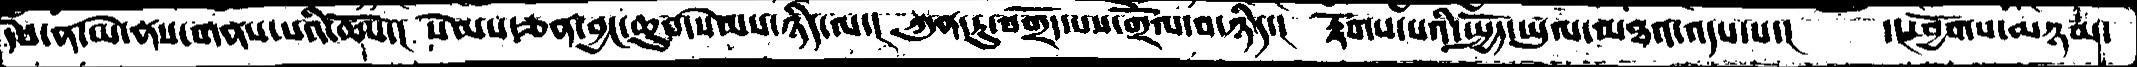དཔེ་ན་ཡེ་ནས་གནས་པའི་ཆོས་།  སེམས་ཅན་བྱང་ཆུབ་སེམས་ཉིད་ལ་།  ཀུན་དུ་བགྲོད་པས་གྲོལ་བ་ཉིད་།  རྟོགས་པའི་སྤྱོད་ཡུལ་མཐའ་འདས་པ་།  ་།ཕྱོགས་མཉམ་
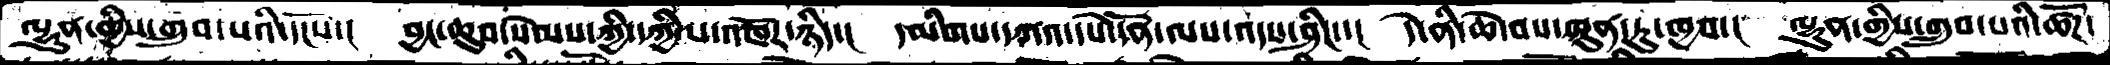ལྷུན་གྱིས་གྲུབ་པའི་དངོས་།  བྱང་ཆུབ་སེམས་ཀྱི་དཀྱིལ་འཁོར་ཉིད་།  དམིགས་དཀའ་དཔེ་དོན་ལས་འདས་ཤིང་་།  དེ་ནི་ཆེ་བས་ཁུན་ཏུ་ཁྱབ་།  ལྷུན་གྱིས་གྲུབ་པའི་ཚོཌ་
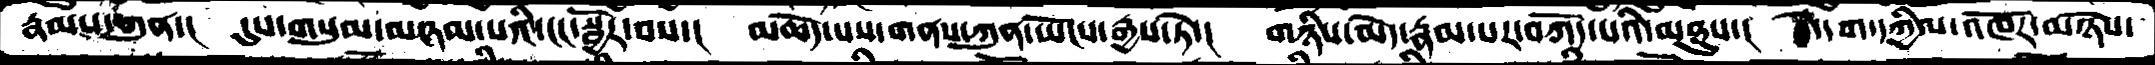རྣམས་ཀུན་།  དུས་གསུམ་མཉམ་པའི་ངང་སྦྱོར་བས་།  མཆོད་པས་གནས་ཀུན་ཡོངས་་རྒྱས་ཏེ་།  གཉིས་མེད་རྣམ་པར་བཀོད་པའི་མཐུས་།  དེ་དག་དཀྱིལ་འཁོར་མཉེས་
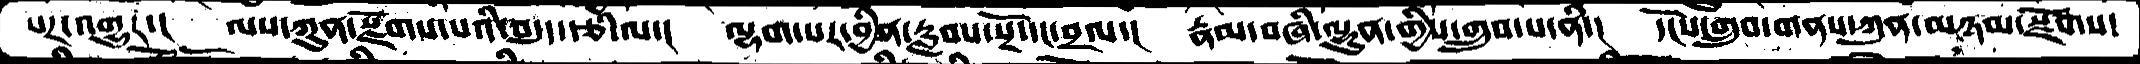པར་འགྱུར་།  ལས་ཀུན་སྫོགས་པའི་བདུད་རྩི་ལ་།  ལྷག་པར་བྱིན་རླབས་སྔོ་དང་བྲལ་།  རྣམ་བཞི་ལྷུན་གྱིས་གྲུབ་པ་ནི་།  དངོས་གྲུབ་གནས་ཀུན་མཉམ་སྫོགས་
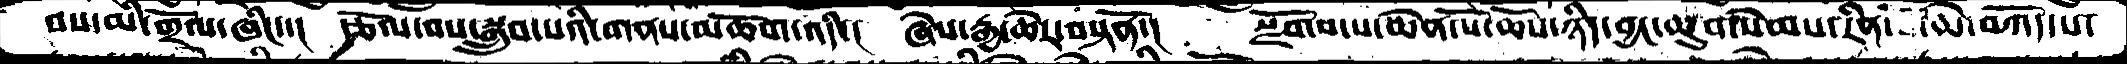བས་མི་གྲོལ་ཞིང་་།  རྩོལ་བས་སྒྲུབ་པའི་གནས་མཆོག་འདི་། ཞེས་རྒྱ་ཆེར་བསྟནོ་། སྫོགས་པ་ཆེན་པོ་ཆོས་ཉིད་བྱང་ཆུབ་སེམས་རིན་པོ་ཆེ་བཀོད་པ་
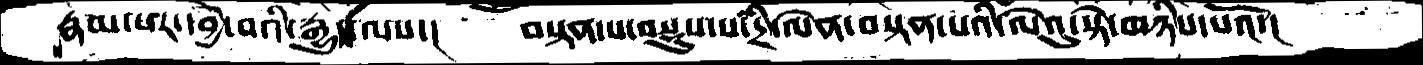རྣམ་པར་དབྱེ་བའི་རྒྱུད་ལས་།    བསྟན་པ་བསྡུས་པ་དྲི་ལེན་བསྟན་པའི་ལེའུ་སྟེ་གཉིས་པའོ་།
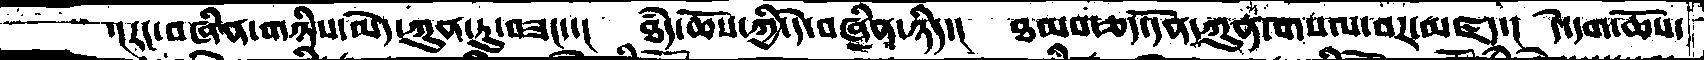་།རང་བཞིན་གཉིས་མེད་ཀུན་ཏུ་བཟང་་།   ཐཾད་ཆོས་ཀྱི་དེ་བཞིན་ཉིད་།   ཐམས་ཅད་དོན་ཀུན་གསལ་བར་མཛད་།   དེ་དག་ཆོས་
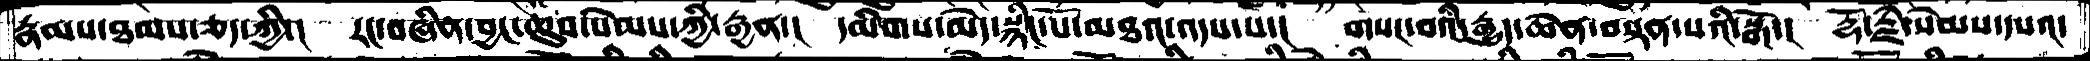རྣམས་ཐམས་ཅད་ཀྱི་།    རང་བཞིན་བྱང་ཆུབ་སེམས་ཀྱི་རྒྱན་།   དམིགས་མེད་སྙིང་པོ་མཐའ་འདས་པ་།   གསང་བའི་རྒྱུད་ཆེན་བསྟན་པའི་སྒོ་།  རྡོ་རྗེ་སེམས་དཔའ་
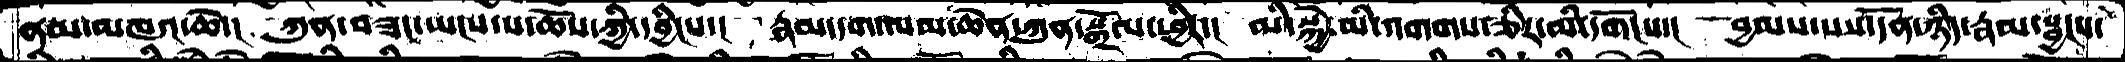ནམ་མཁའ་ཆེ་།   ཀུན་བཟང་ཡངས་པ་ཆོས་ཀྱི་དབྱིངས་།   རྣམ་དག་ལམ་ཆེན་ཀུན་སྒྲོལ་ཕྱིར་།   མི་སྐྱེ་མི་འགགས་ཅིར་མི་དགོངས་།   བྱམས་པས་དོན་ཉིད་རྣམ་སྦྱངས་
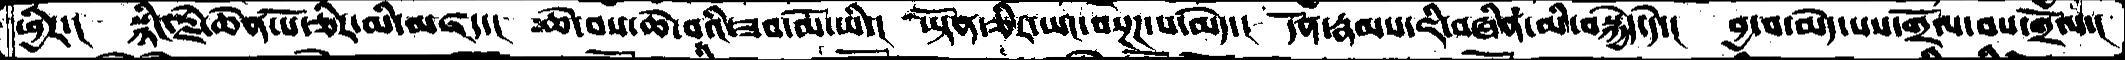ཕྱིར་། སྙིང་རྗེ་ཆེན་པོ་ཅིར་མི་མཛད་། དཙེ་བས་ཆེ་བའི་ཟབ་མོ་ཡི་། ཡྟོན་ཅིར་ཡང་བསྔཌ་པ་མེད་། དོན་རྣམས་ཇི་བཞིན་མི་བསྐྱེད་དེ་། བྱ་བ་མེད་པས་གྲོལ་བས་གྲོལ་།
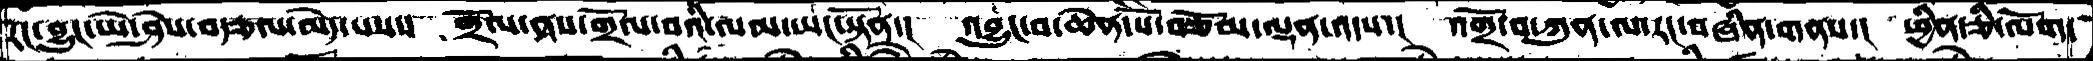རང་བྱུང་ཡེ་ཤེས་བརྩལ་མེད་པས་།  གྲོལ་ནས་གྲོལ་བའི་ལམ་ཡང་སྟོན་།  འབྱུང་བ་ཆེན་པོ་བཅོམ་ལྡན་འདས་།   འགྲོ་བ་ཀུན་ལ་རང་བཞིན་གནས་།  ཕྱིན་ཅི་ལོག་
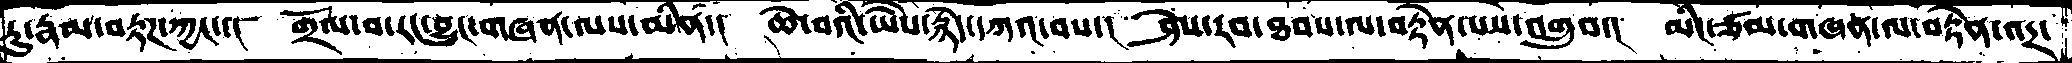ཏུ་རྣམ་བརྟཌ་ཀྱང་་།   གྲོལ་བ་རང་བྱུང་གཞན་ལས་མིན་།   ཆེ་བའི་ཡཻས་རྙེད་དཀའ་བས་།  ཤེས་རབ་ཐབས་ལ་བརྟེན་པས་འགྲུབ་།  མིང་ཙམ་གཞན་ལ་བརྟེན་འདྲ་
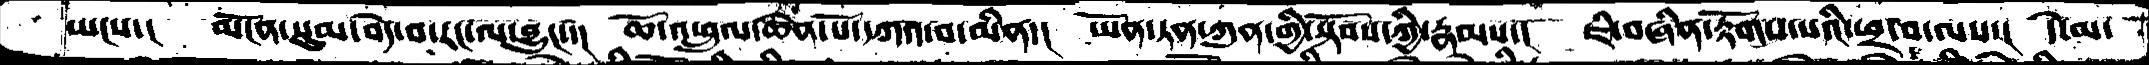ཡངས་།   མངོན་སུམ་བདེ་བ་རང་ལ་བྱུང་་།   ཆོ་འཕྲུལ་ཆེན་པོ་དཀའ་བ་མིན་།  ཡོན་ཏན་ཀུན་གྱི་སྟོབས་ཀྱི་རྣམས་།  ཇི་བཞིན་རྟོགས་པའི་ཕྲ་བ་ལས་།  དེ་མ་
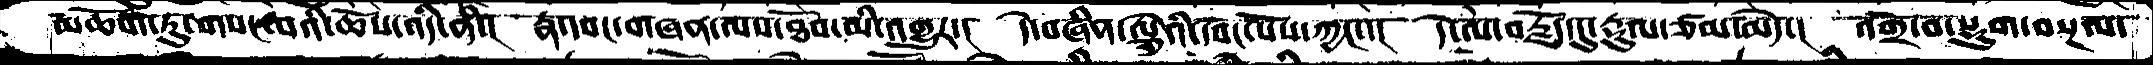མཆོག་ཏུ་གསང་བའི་ཆོས་འདི་ནི་།  རྣ་དབང་གཞན་ལས་ཐོབ་མི་འགྱུར་།  དེ་བཞིན་ལྕེའི་དབང་པོས་ཀྱང་་།  དེ་ལ་བརྗོད་དུ་རྡུལ་ཙམ་མེད་།  འགྲོ་བ་སྡུག་བསྔལ་
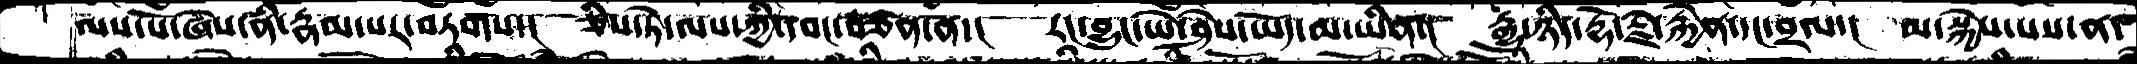ལས་སོ་ཞེས་ནི་རྣམ་པར་བཏགས་།  ཅིས་ཏེ་ལས་ཀྱི་དབང་བཙན་ན་།  རང་བྱུང་ཡེ་ཤེས་ཡོད་མ་ཡིན་།  རྒྱུ་ཉིད་རྡོ་རྗེ་རྐྱེན་དང་བྲལ་།  མ་སྐྱེས་པས་ན་
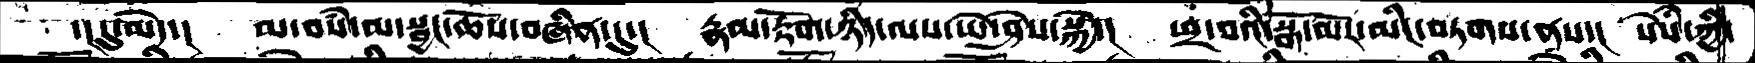་།དུ་མེད་།  མ་བསཾ་མ་སྦྱང་ཆོས་བཞིན་དུ་།  རྣམ་རྟོག་ཉིད་ལས་ཡེ་ཤེས་སྐྱེ་། ཕྲ་བའི་སྒོ་མོར་མིང་བཏགས་ནས་།  སེསཾ་ཀྱི་
